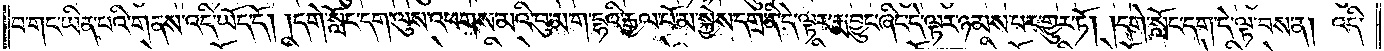བ་གང་ཡིན་པའི་གནས་འདི་ཡོད་དོ། །དགེ་སློང་དག་ལུས་འཕགས་མའི་བུ་མ་ག་དྷའི་རྒྱལ་པོ་མ་སྐྱེས་དགྲ་ནི་དེ་ལྟར་རྨ་བྱུང་ཞིང་དེ་ལྟར་ཉམས་པར་གྱུར་ཏོ། །དགེ་སློང་དག་དེ་ལྟ་བས་ན། འདི་
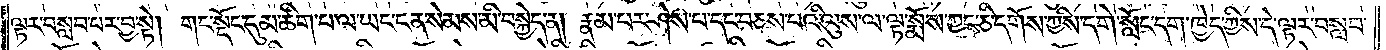ལྟར་བསླབ་པར་བྱ་སྟེ། གང་སྡོང་དུ་མ་ཚིག་པ་ལ་ཡང་ངན་སེམས་མི་བསྐྱེད་ན། རྣམ་པར་ཤེས་པ་དང་བཅས་པའི་ལུས་ལ་ལྟ་སྨོས་ཀྱང་ཅི་དགོས་ཀྱིས་དགེ་སློང་དག་ཁྱེད་ཀྱིས་དེ་ལྟར་བསླབ་
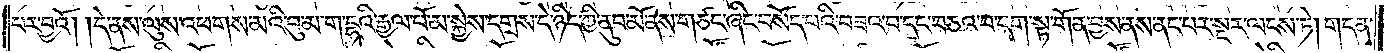པར་བྱའོ། །དེ་ནས་ལུས་འཕགས་མའི་བུ་མ་ག་དྷའི་རྒྱལ་པོ་མ་སྐྱེས་དགྲས་དེ་ཉིད་ཀྱི་ནུབ་མོ་ནས་གཙང་ཞིང་བསོད་པའི་བཟའ་བ་དང་བཅའ་བ་དག་སྟ་གོན་བྱས་ནས་ནང་པར་སྔར་ལངས་ཏེ། གདན་
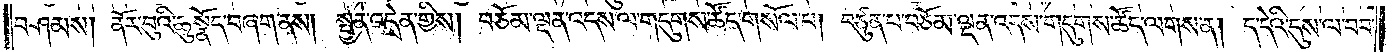བཤམས། ནོར་བུའི་ཆུ་སྣོད་བཞག་ནས། སྤྱན་འདྲེན་གྱིས། བཅོམ་ལྡན་འདས་ལ་གདུགས་ཚོད་གསོལ་པ། བཙུན་པ་བཅོམ་ལྡན་འདས་གདུགས་ཚོད་ལགས་ན། ད་དེའི་དུས་ལ་བབ་
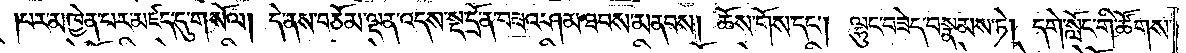པར་མཁྱེན་པར་མཛད་དུ་གསོལ། དེ་ནས་བཅོམ་ལྡན་འདས་སྔ་དྲོ་ན་བཟའ་ཤམ་ཐབས་མནབས། ཆོས་གོས་དང༌། ལྷུང་བཟེད་བསྣམས་ཏེ། དགེ་སློང་གི་ཚོགས་
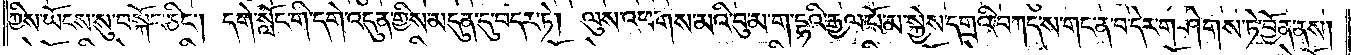ཀྱིས་ཡོངས་སུ་བསྐོར་ཅིང༌། དགེ་སློང་གི་དགེ་འདུན་གྱིས་མདུན་དུ་བདར་ཏེ། ལུས་འཕགས་མའི་བུ་མ་ག་དྷའི་རྒྱལ་པོ་མ་སྐྱེས་དགྲའི་བཀད་ས་གང་ན་བ་དེར་གཤེགས་ཏེ་བྱོན་ནས།
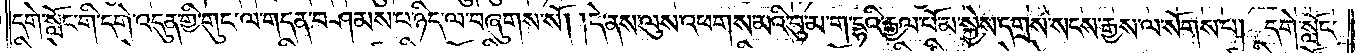དགེ་སློང་གི་དགེ་འདུན་གྱི་གུང་ལ་གདན་བཤམས་པ་ཉིད་ལ་བཞུགས་སོ། །དེ་ནས་ལུས་འཕགས་མའི་བུ་མ་ག་དྷའི་རྒྱལ་པོ་མ་སྐྱེས་དགྲས་སངས་རྒྱས་ལ་སོགས་པ། དགེ་སློང་
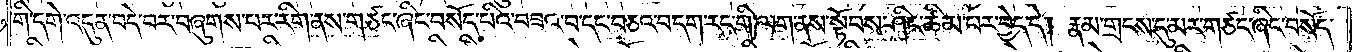གི་དགེ་འདུན་བདེ་བར་བཞུགས་པར་རིག་ནས་གཙང་ཞིང་བསོད་པའི་བཟའ་བ་དང་བཅའ་བ་དག་རང་གི་ལག་ནས་སྟོབས་ཤིང་ཚིམ་པར་བྱེད་དེ། རྣམ་གྲངས་དུ་མར་གཙང་ཞིང་བསོད་
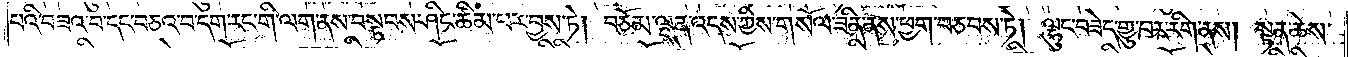པའི་བཟའ་བ་དང་བཅའ་བ་དག་རང་གི་ལག་ནས་བསྟབས་ཤིང་ཚིམ་པར་བྱས་ཏེ། བཅོམ་ལྡན་འདས་ཀྱིས་གསོལ་ཟིན་ནས་ཕྱག་བཅབས་ཏེ། ལྷུང་བཟེད་གྱུ་བར་རིག་ནས། སྟན་ཆེས་
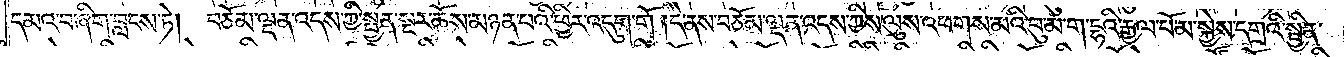དམའ་བ་ཞིག་བླངས་ཏེ། བཅོམ་ལྡན་འདས་ཀྱི་སྤྱན་སྔར་ཆོས་མཉན་པའི་ཕྱིར་འདུག་གོ །དེ་ནས་བཅོམ་ལྡན་འདས་ཀྱིས་ལུས་འཕགས་མའི་བུ་མ་ག་དྷའི་རྒྱལ་པོ་མ་སྐྱེས་དགྲའི་སྦྱིན་
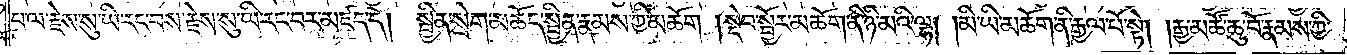པ་ལ་རྗེས་སུ་ཡི་རང་བས་རྗེས་སུ་ཡི་རང་བར་མཛད་དེ། སྦྱིན་སྲེག་མཆོད་སྦྱིན་རྣམས་ཀྱི་མཆོག །སྡེབ་སྦྱོར་མཆོག་ནི་ཉི་མའི་ལྷ། །མི་ཡི་མཆོག་ནི་རྒྱལ་པོ་སྟེ། །རྒྱ་མཚོ་ཆུ་བོ་རྣམས་ཀྱི་
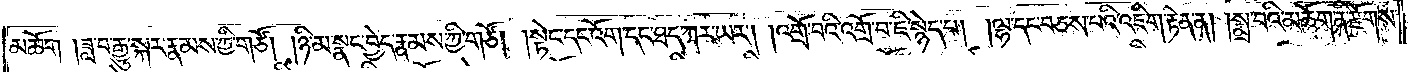མཆོག །ཟླ་བ་རྒྱུ་སྐར་རྣམས་ཀྱི་གཙོ། །ཉི་མ་སྣང་བྱེད་རྣམས་ཀྱི་གཙོ། །སྟེང་དང་འོག་དང་ཐད་ཀར་ཡར། །འགྲོ་བའི་འགྲོ་བ་ཇི་སྙེད་པ། །ལྷ་དང་བཅས་པའི་འཇིག་རྟེན་ན། །སྨྲ་བའི་མཆོག་ནི་རྫོགས་
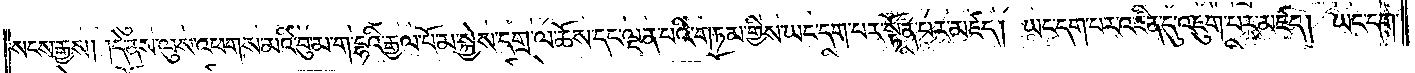སངས་རྒྱས། །དེ་ནས་ལུས་འཕགས་མའི་བུ་མ་ག་དྷའི་རྒྱལ་པོ་མ་སྐྱེས་དགྲ་ལ་ཆོས་དང་ལྡན་པའི་གཏམ་གྱིས་ཡང་དག་པར་སྟོན་པར་མཛད། ཡང་དག་པར་འཛིན་དུ་འཇུག་པར་མཛད། ཡང་དག་
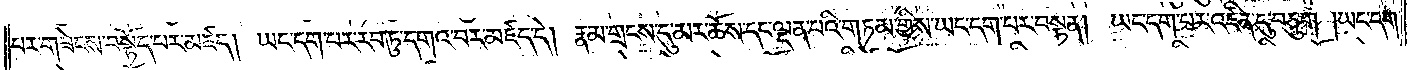པར་གཟེངས་བསྟོད་པར་མཛད། ཡང་དག་པར་རབ་ཏུ་དགའ་བར་མཛད་དེ། རྣམ་གྲངས་དུ་མར་ཆོས་དང་ལྡན་པའི་གཏམ་གྱིས་ཡང་དག་པར་བསྟན། ཡང་དག་པར་འཛིན་དུ་བཅུག །ཡང་དག་
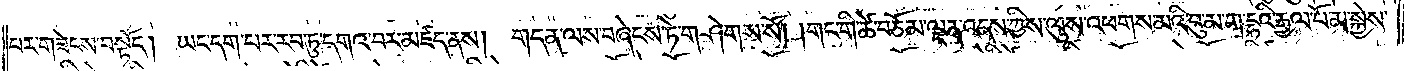པར་གཟེངས་བསྟོད། ཡང་དག་པར་རབ་ཏུ་དགའ་བར་མཛད་ནས། གདན་ལས་བཞེངས་ཏེ་གཤེགས་སོ། །གང་གི་ཚེ་བཅོམ་ལྡན་འདས་ཀྱིས་ལུས་འཕགས་མའི་བུ་མ་ག་དྷའི་རྒྱལ་པོ་མ་སྐྱེས་
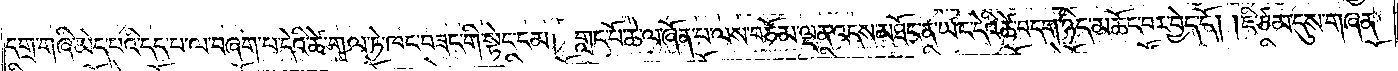དགྲ་གཞི་མེད་པའི་དད་པ་ལ་བཞག་པ་དེའི་ཚེ་གལ་ཏེ་ཁང་བཟང་གི་སྟེང་ངམ། གླང་པོ་ཆེ་ལ་ཞོན་པ་ལས་བཅོམ་ལྡན་འདས་མཐོང་ན་ཡང་དེའི་ཚེ་བདག་ཉིད་མཆོང་བར་བྱེད་དོ། །ཇི་ཙམ་དུས་གཞན་
